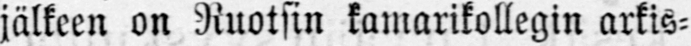jälkeen on Ruotsin kamarikollegin arkis-
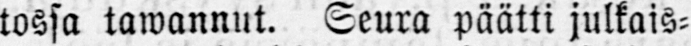tossa tawannut. Seura päätti julkais-
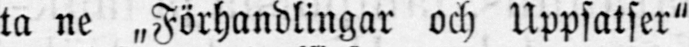ta ne „Förhandlingar och Uppsatser"
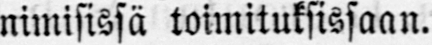nimisissä toimituksissaan.
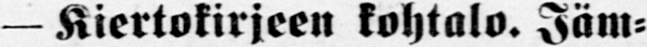— Kiertokirjeen kohtalo. Jäm-
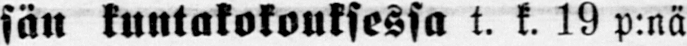sän kuntakokouksessa t. k. 19 p:nä
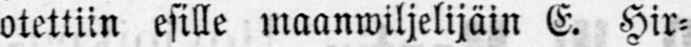otettiin esille maanwiljelijäin E. Hir-
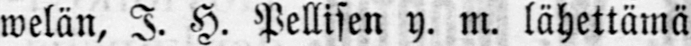welän, J. H. Pellisen y. m. lähettämä
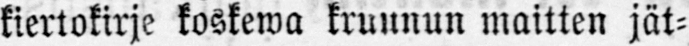kiertokirje koskewa kruunun maitten jät-
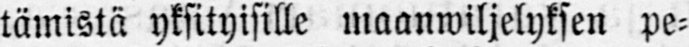tämistä yksityisille maanwiljelyksen pe-
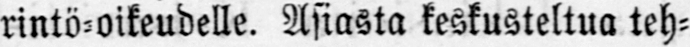rintö-oikeudelle. Asiasta keskusteltua teh-
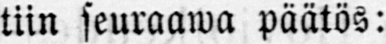tiin seuraawa päätös:
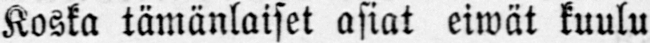Koska tämänlaiset asiat eiwät kuulu
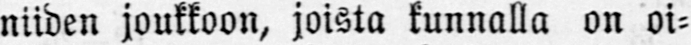niiden joukkoon, joista kunnalla on oi-
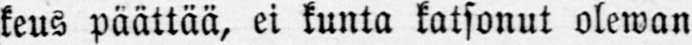keus päättää, ei kunta katsonut olewan
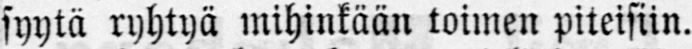syytä ryhtyä mihinkään toimen piteisiin.
